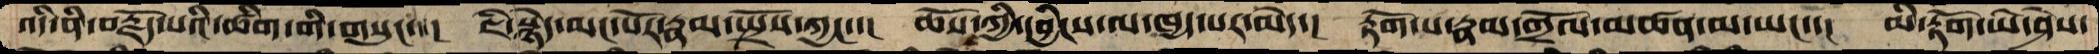འདི་ནི་བརྗོད་པའི་ཚིག་གི་གསུང་་།  ཇི་སྙེད་མང་པོར་རྣམ་སྤྲོས་ཀྱང་་།  ཆོས་ཀྱི་དབྱིངས་ལ་ཁྱད་པར་མེད་།  རྟོག་པ་རྣམ་གྲོལ་མཚན་མ་ཡང་་།  མི་རྟོག་ཡེ་ཤེས་
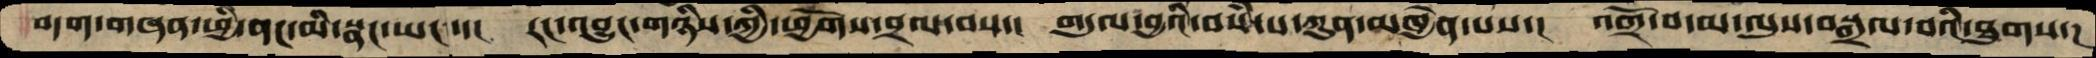བདག་གཞན་ཕྱི་ནང་མི་སྣང་ཡང་་།  རང་འབྱུང་གཉིས་ཀྱི་ཕྱོགས་བྲལ་བས་།  གདུལ་བྱའི་བསཾ་པ་ཀུན་མཁྱེན་པས་།  འགྲོ་བ་མ་ལུས་བསྒྲལ་བའི་ཐུགས་།
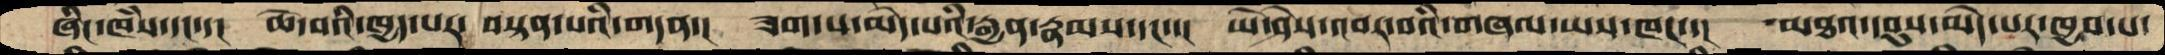ཞིང་ཁཾས་དང་་།  ཆེ་བའི་ཁྱད་པར་བསྟན་པའི་གདན་།  ཟག་པ་མེད་པའི་རྒྱན་རྣམས་དང་་།  ཡེ་ཤེས་འབར་བའི་གཞལ་ཡས་ཁང་་།  མཐའ་དབུས་མེད་པར་ཁྱབ་པ་
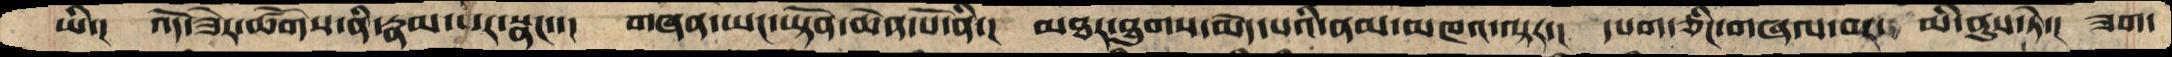ཡི་། འོད་ཟེར་ཚོགས་ནི་རྣམ་པར་སྣང་་། གཞན་ཡང་ཡྟོན་ཆེན་པོ་ནི་། མཐར་ཐུགས་མེད་པའི་ནམ་མཁའ་ལྟར་། དཔག་ཅིང་གཞལ་བར ་མི་ནུས་ཏེ་། ཟག་
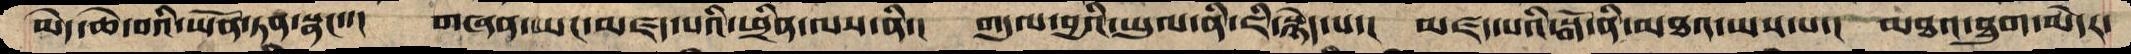མེད་ཆེ་བའི་ཡོན་ཏན་སྣང་་།  གཞན་ཡང་མཛད་པའི་ཕྲིན་ལས་ནི་།  གདུལ་བྱའི་ཡུལ་ནི་ཇི་སྙེད་པ་།  མཛད་པའི་སྒོ་ནི་མཐའ་ཡས་པ་།  མཐའ་ཐུག་མེདར་
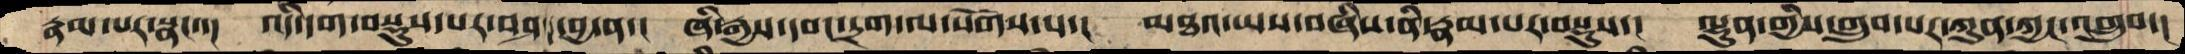རྣམ་པར་སྣང་་།   འདི་དག་བསྡུས་པར་བཤད་བྱ་ན་།  ཞི་རྒྱས་དབང་དྲག་ལ་སོགས་པ་།   མཐའ་ཡས་བཞིས་ནི་རྣམ་པར་བསྡུས་།  ལྷུན་གྱིས་གྲུབ་པར་ཀུན་ཀྱང་འགྲུབ་།
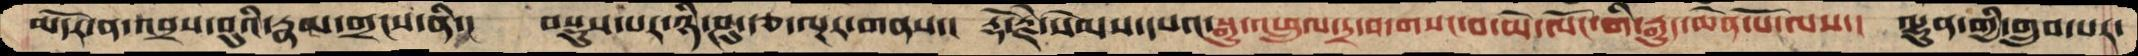མདོར་ན་འབྲས་བུའི་རྣམ་གྲངས་ནི་།  བསྡུས་པར་ཉི་ཤུ་རྩ་ལྔར་གནས་།  རྡོ་རྗེ་སེམས་དཔའ་སྒྱུ་འཕྲུལ་དྲ་བ་གསང་བ་མེ་ལོང་གི་རྒྱུད་ཆེན་པོ་ལས་།  ལྷུན་གྱི་གྲུབ་པར་
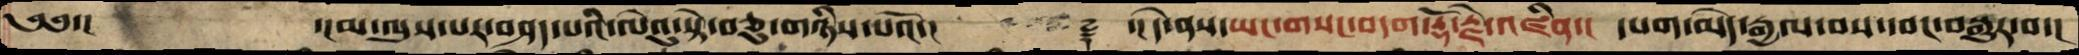༄༅་།           ་།མ་ལུས་པར་བཤད་པའི་ལེའུ་སྟེ་བཅུ་གཉིས་པའོ་།        ࿑  ་། དེ་ནས་ཡང་གསང་བདག་རྡོ་རྗེ་འཛིན་།  དཔག་མེད་རྒྱལ་བས་དབང་བསྒྱུར་བ་།
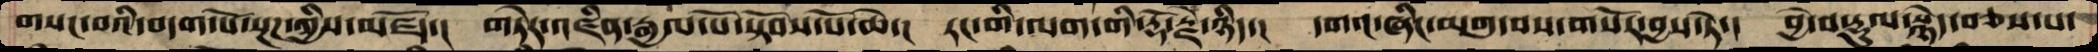གསང་བའི་བདག་པོ་སྔཌ་ཀྱིས་མཛོད་།  གཏེར་འཛིན་རྒྱལ་པོ་སྟོབས་པོ་ཆེ་།   རང་གི་ལག་གི་རྡོ་རྗེ་ཉིད་།  དགའ་ཞིང་མགུ་བས་གསོར་བྱས་ཏེ་།  བྱེ་བ་རྡུལ་སྙེད་བཅས་པ་
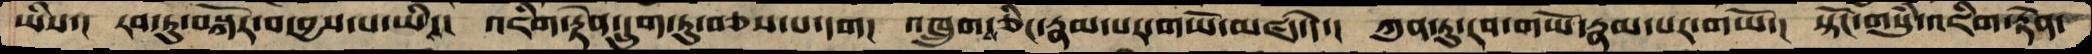ཡིས་། རབ་ཏུ་བསྐོར་བ་བྱས་པ་ཡིས་། འཇིག་རྟེན་དྲུག་ཏུ་བཅས་པ་དག། འཁྲུགས་ཅིང་རྣམ་པར་གཡོ་མཛད་དེ་། ཀུན་ཏུ་རབ་གཡོ་རྣམ་པར་གཡོ་། སྟོང་གསུཾ་འཇིག་རྟེན་
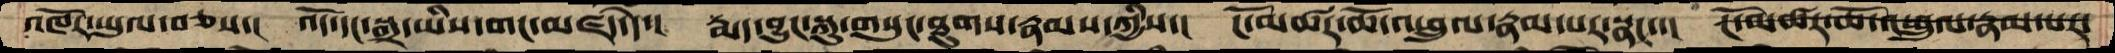འཁོར་ཡུལ་བཅས་།  འོད་དང་སྒྲ་ཡིས་གང་མཛད་དེ་།  རྨད་བྱུང་སྐུ་གསུང་ཐུགས་རྣམས་ཀྱིས་།  ངོ་མཚར་ཆོ་འཕྲུལ་རྣམ་པར་སྣང་་།  ངོ་མཚར་ཆོ་འཕྲུལ་རྣམ་པར་
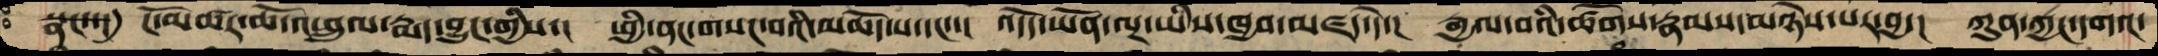སྣང་་། ངོ་མཚར་ཆོ་འཕྲུལ་རྨད་བྱུང་གྱིས་། ཕྱི་ནང་གསང་བའི་མཆོད་པ་དང་་། འདོད་ཡོན་ལྔ་ཡིས་ཁྱབ་མཛད་དེ་། རྒྱལ་བའི་ཚོགས་རྣམས་མཉེས་པར་བྱ་། ཀུན་ཀྱང་དགའ་
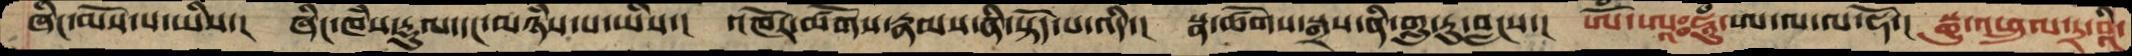ཞིང་མོས་པ་ཡིས་། ཞིང་ཁཾས་རྡུལ་དང་མཉཾས་པ་ཡིས་། འཁོར་ཚོགས་རྣམས་ནི་སྟོད་པ་འདི་། སྣ་ཚོགས་སྒྲས་ནི་གླུ་རུ་བླངས་། ཨོཾ་ཨཱཿཧཱུཾ་ཨ་ལ་ལ་ལ་ཧོ་། སྒྱུ་འཕྲུལ་དྲ་བའི་
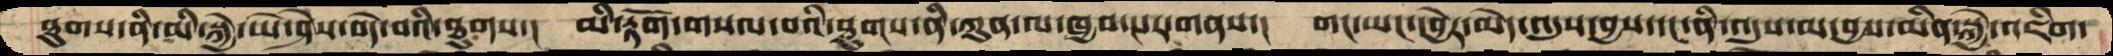ཐུགས་ནི་མི་སྐྱེ་ཡེ་ཤེས་བདེ་བའི་ཐུགས་།  མི་རྟོག་གསལ་བའི་ཐུགས་ནི་ཀུན་ལ་ཁྱབ་པར་གནས་།  གང་ཡང་དབྱེར་མེད་འདུས་བྱས་དང་ནི་འདུས་མ་བྱས་མིན་སྐྱེ་འཇིག་
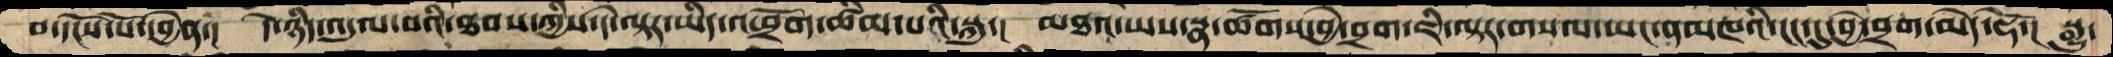བ་དངོས་པོ་དབྱེན་།  དེ་ཉིད་འདུལ་བའི་ཐབས་ཀྱིས་དེ་ལྟར་ཡིད་འཕྲོག་ཚིམ་པའི་སྐུ་།  མཐའ་ཡས་སྣ་ཚོགས་བྱེ་བྲག་ཇི་ལྟར་གསལ་ཡང་ནམཁའི་ངང་དུ་བྱེ་བྲག་མེད་ཧོ་།  སྒྱུ་
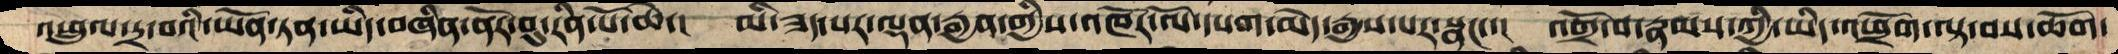འཕྲུལ་དྲ་བའི་ཡོན་ཏན་ཡིད་བཞིན་ནོར་བུ་རིན་པོ་ཆེ་།  མི་ཟད་སར་ལྡན་རྒྱན་གྱིས་འཁོར་ལོ་དཔག་མེད་རྒྱས་པར་སྣང་་།  འགྲོ་བ་རྣམས་ཀྱི་ཡིད་འཕྲོག་ལྟ་བས་ཆོག་
